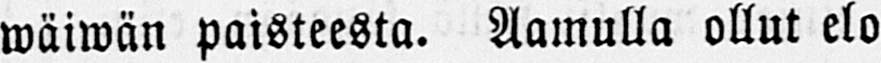wäiwän paisteesta. Aamulla ollut elo
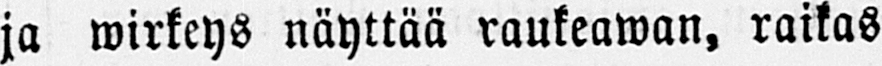ja wirkeys näyttää raukeawan, raikas
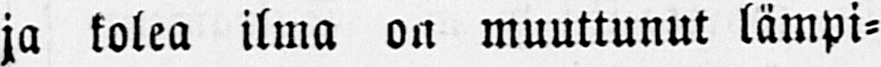ja kolea ilma on muuttunut lämpi-
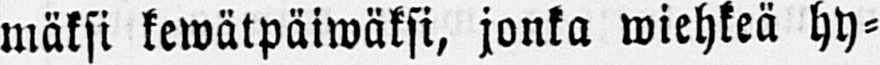mäksi kewätpäiwäksi, jonka wiehkeä hy-
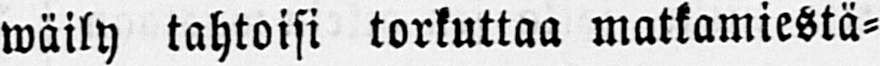wäily tahtoisi torkuttaa matkamiestä-
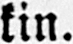kin.
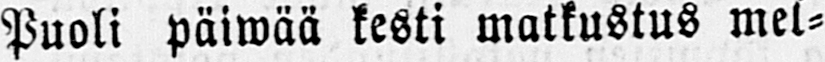Puoli päiwää kesti matkustus mel-
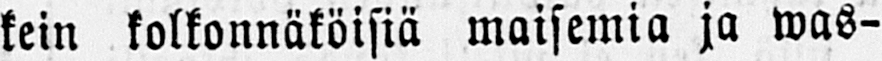kein kolkonnäköisiä maisemia ja was-
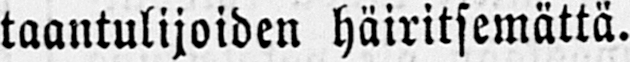taantulijoiden häiritsemättä.
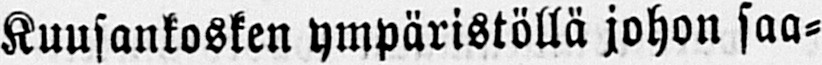Kuusankosken ympäristöllä johon saa-
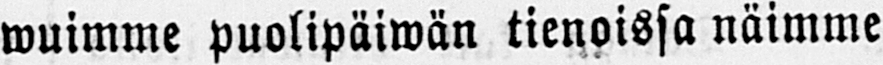wuimme puolipäiwän tienoissa näimme
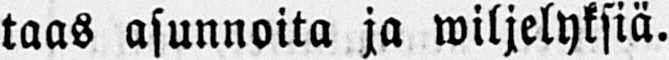taas asunnoita ja wiljelyksiä.
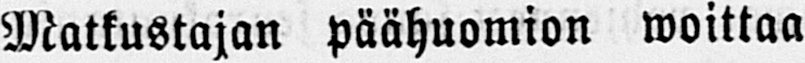Matkustajan päähuomion woittaa
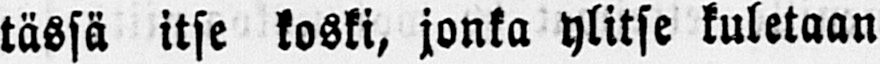tässä itse koski, jonka ylitse kuletaan
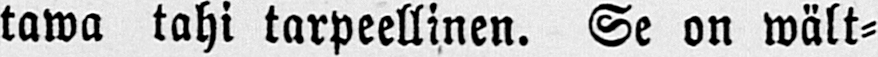tawa tahi tarpeellinen. Se on wält-
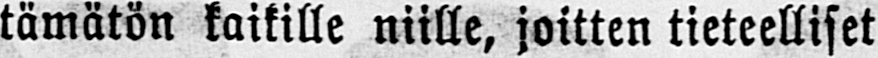tämätön kaikille niille, joitten tieteelliset
